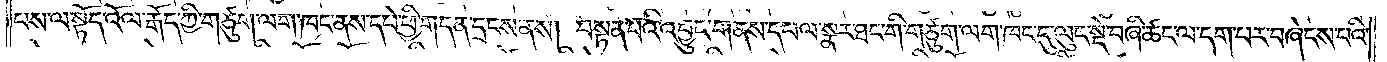པས་ལ་སྟོད་འོལ་རྒོད་ཀྱི་གཙུག་ལག་ཁང་ནས་དཔེ་ཕྱི་གདན་དྲངས་ནས། བསྟན་པའི་འབྱུང་གནས་དཔལ་སྣར་ཐང་གི་གཙུག་ལག་ཁང་དུ་ལུང་སྡེ་བཞི་ཚང་ལ་དག་པར་བཞེངས་པའི་
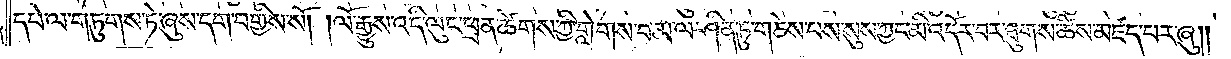དཔེ་ལ་གཏུགས་ཏེ་ཞུས་དག་བགྱིས་སོ། །ལོ་རྒྱུས་འདི་ལུང་ཕྲན་ཚེགས་ཀྱི་གླེགས་བམ་ལ་ཤིན་ཏུ་གཅེས་པས་སུས་ཀྱང་མི་འདོར་བར་ཐུགས་ཚིས་མཛད་པར་ཞུ༎
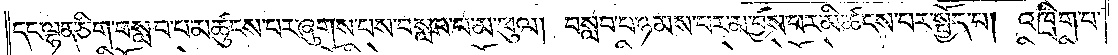དང་ལྷན་ཅིག་བསླབ་པ་མཚུངས་པར་ཞུགས་པས་བསླབ་པ་མ་ཕུལ། བསླབ་པ་ཉམས་པར་མ་བྱས་པར་མི་ཚངས་པར་སྤྱོད་པ། འཁྲིག་པ་
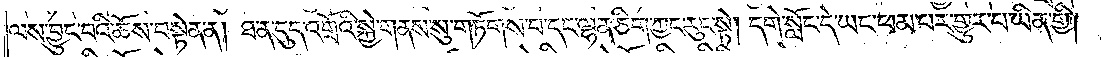ལས་བྱུང་བའི་ཆོས་བསྟེན་ན། ཐ་ན་དུད་འགྲོའི་སྐྱེ་གནས་སུ་གཏོགས་པ་དང་ལྷན་ཅིག་ཀྱང་རུང་སྟེ། དགེ་སློང་དེ་ཡང་ཕམ་པར་གྱུར་པ་ཡིན་གྱི།
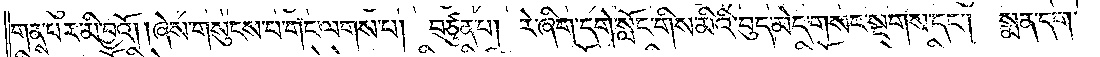གནས་པར་མི་བྱའོ། །ཞེས་གསུངས་པ་གང་ལགས་པ། བཙུན་པ། རེ་ཞིག་དགེ་སློང་གིས་མིའི་བུད་མེད་གསང་སྔགས་དང༌། སྨན་དག་
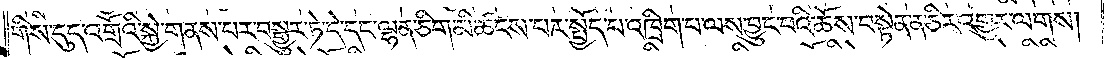གིས་དུད་འགྲོའི་སྐྱེ་གནས་པར་བསྒྱུར་ཏེ་དེ་དང་ལྷན་ཅིག་མི་ཚངས་པར་སྤྱོད་པ་འཁྲིག་པ་ལས་བྱུང་བའི་ཆོས་བསྟེན་ན་ཅིར་འགྱུར་ལགས།
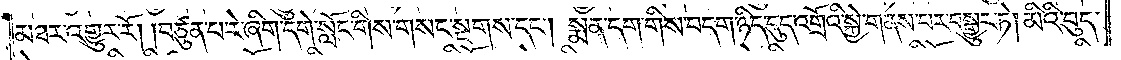མཐར་འགྱུར་རོ། །བཙུན་པ་རེ་ཞིག་དགེ་སློང་གིས་གསང་སྔགས་དང༌། སྨན་དག་གིས་བདག་ཉིད་དུད་འགྲོའི་སྐྱེ་གནས་པར་བསྒྱུར་ཏེ། མིའི་བུད་
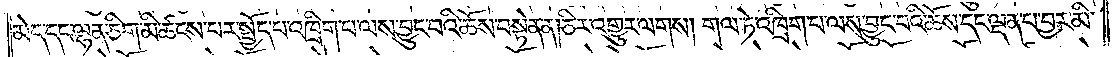མེད་དང་ལྷན་ཅིག་མི་ཚངས་པར་སྤྱོད་པ་འཁྲིག་པ་ལས་བྱུང་བའི་ཆོས་བསྟེན་ན། ཅིར་འགྱུར་ལགས། གལ་ཏེ་འཁྲིག་པ་ལས་བྱུང་བའི་ཆོས་དང་ལྡན་པ་བྱར་མི་
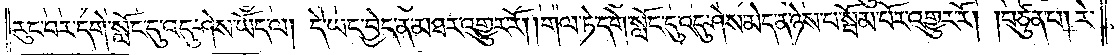རུང་བར་དགེ་སློང་དུ་འདུ་ཤེས་ཡོད་ལ། དེ་ཡང་བྱེད་ན་མཐར་འགྱུར་རོ། །གལ་ཏེ་དགེ་སློང་དུ་འདུ་ཤེས་མེད་ན་ཉེས་པ་སྦོམ་པོར་འགྱུར་རོ། །བཙུན་པ། རེ་
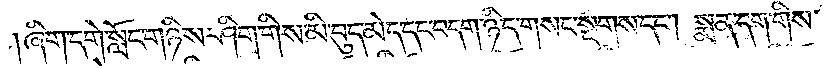།ཞིག་དགེ་སློང་གཉིས་ཤིག་གིས་མི་བུད་མེད་དང་བདག་ཉིད་གསང་སྔགས་དང༌། སྨན་དག་གིས་
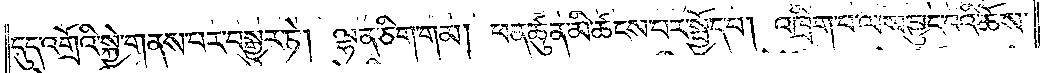དུད་འགྲོའི་སྐྱེ་གནས་པར་བསྒྱུར་ཏེ། ལྷན་ཅིག་གམ། ཕན་ཚུན་མི་ཚངས་པར་སྤྱོད་པ། འཁྲིག་པ་ལས་བྱུང་བའི་ཆོས་
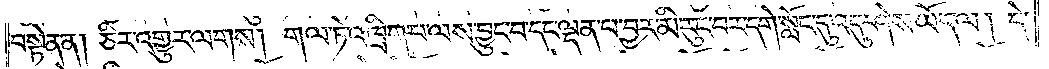བསྟེན་ན། ཅིར་འགྱུར་ལགས། གལ་ཏེ་འཁྲིག་པ་ལས་བྱུང་བ་དང་ལྡན་པ་བྱར་མི་རུང་བར་དགེ་སློང་དུ་འདུ་ཤེས་ཡོད་ལ། དེ་
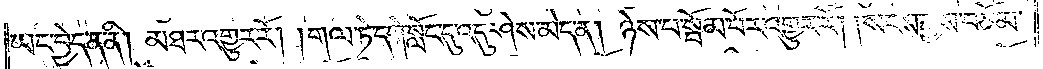ཡང་བྱེད་ན་ནི། མཐར་འགྱུར་རོ། །གལ་ཏེ་དགེ་སློང་དུ་འདུ་ཤེས་མེད་ན། ཉེས་པ་སྦོམ་པོར་འགྱུར་རོ། །སངས་རྒྱས་བཅོམ་
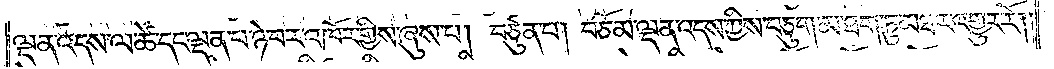ལྡན་འདས་ལ་ཚེ་དང་ལྡན་པ་ཉེ་བར་འཁོར་གྱིས་ཞུས་པ། བཙུན་པ། བཅོམ་ལྡན་འདས་ཀྱིས་བཅུག་མ་ཐག་ཏུ་མཐར་འགྱུར་རོ༎
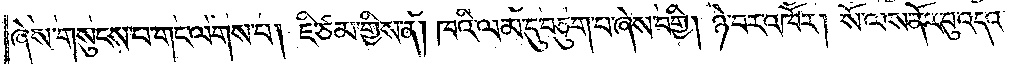ཞེས་གསུངས་པ་གང་ལགས་པ། ཇི་ཙམ་གྱིས་ན། ཁའི་ལམ་དུ་བཅུག་པ་ཞེས་བགྱི། ཉེ་བར་འཁོར། སོ་ལས་ནོར་བུ་འདའ་
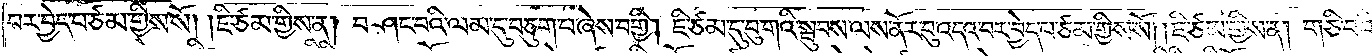བར་བྱེད་པ་ཙམ་གྱིས་སོ། །ཇི་ཙམ་གྱིས་ན། བཤང་བའི་ལམ་དུ་བཅུག་པ་ཞེས་བགྱི། ཇི་ཙམ་དུ་བུ་གའི་སྦུབས་ལས་ནོར་བུ་འདའ་བར་བྱེད་པ་ཙམ་གྱིས་སོ། །ཇི་ཙམ་གྱིས་ན། གཅི་བའི་
